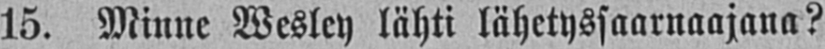15. Minne Wesley lähti lähetyssaarnaajana?
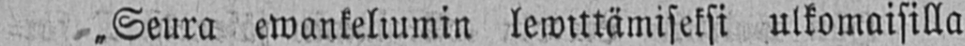˶Seura ewankeliumin lewittämiseksi ulkomaisilla
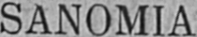RAUHAN SANOMIA.
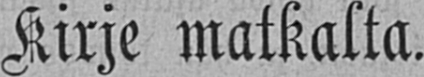Kirje matkalta.
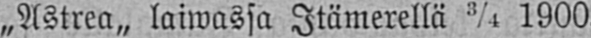„Astrea„ laiwassa Itämerellä ¾ 1900.
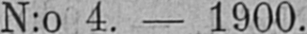N:o 4.- 1900.
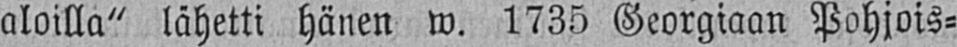aloilla" lähetti hänen w. 1735 Georgiaan Pohjois-
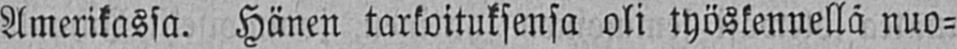Amerikassa. Hänen tarkoituksensa oli työskennellä nuo-
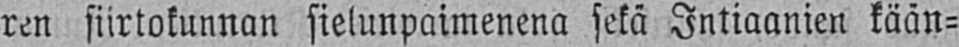ren siirtokunnan sielunpaimenena sekä Intiaanien kään-
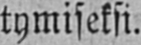tymiseksi.
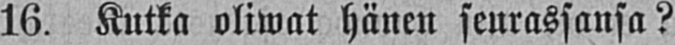16. Kutka oliwat hänen seurassansa?
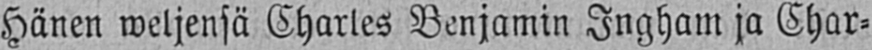Hänen weljensä Charles Benjamin Ingham ja Char-
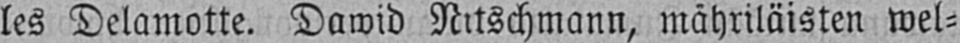les Delamotte. Dawid Nitschmann, mähriläisten wel-
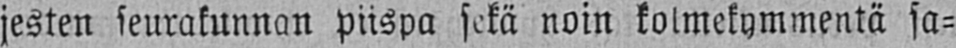jesten seurakunnan piispa sekä noin kolmekymmentä sa-
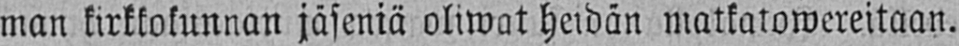man kirkkokunnan jäseniä oliwat heidän matkatowereitaan.
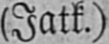(Jatk.)
